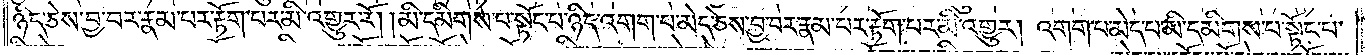ཉིད་ཅེས་བྱ་བར་རྣམ་པར་རྟོག་པར་མི་འགྱུར་རོ། །མི་དམིགས་པ་སྟོང་པ་ཉིད་འགག་པ་མེད་ཅེས་བྱ་བར་རྣམ་པར་རྟོག་པར་མི་འགྱུར། འགག་པ་མེད་པ་མི་དམིགས་པ་སྟོང་པ་
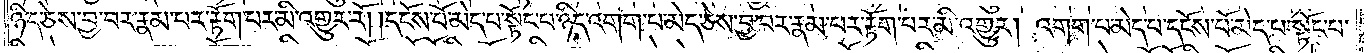ཉིད་ཅེས་བྱ་བར་རྣམ་པར་རྟོག་པར་མི་འགྱུར་རོ། །དངོས་པོ་མེད་པ་སྟོང་པ་ཉིད་འགག་པ་མེད་ཅེས་བྱ་བར་རྣམ་པར་རྟོག་པར་མི་འགྱུར། འགག་པ་མེད་པ་དངོས་པོ་མེད་པ་སྟོང་པ་
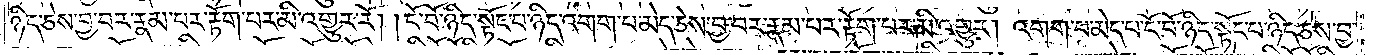ཉིད་ཅེས་བྱ་བར་རྣམ་པར་རྟོག་པར་མི་འགྱུར་རོ། །ངོ་བོ་ཉིད་སྟོང་པ་ཉིད་འགག་པ་མེད་ཅེས་བྱ་བར་རྣམ་པར་རྟོག་པར་མི་འགྱུར། འགག་པ་མེད་པ་ངོ་བོ་ཉིད་སྟོང་པ་ཉིད་ཅེས་བྱ་
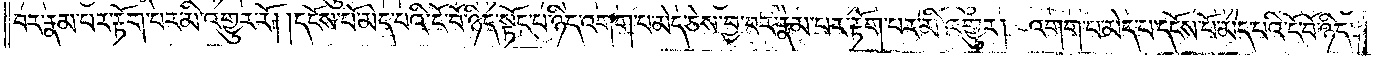བར་རྣམ་པར་རྟོག་པར་མི་འགྱུར་རོ། །དངོས་པོ་མེད་པའི་ངོ་བོ་ཉིད་སྟོང་པ་ཉིད་འགག་པ་མེད་ཅེས་བྱ་བར་རྣམ་པར་རྟོག་པར་མི་འགྱུར། འགག་པ་མེད་པ་དངོས་པོ་མེད་པའི་ངོ་བོ་ཉིད་
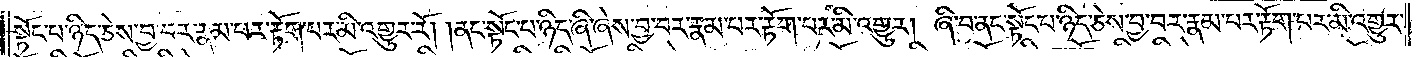སྟོང་པ་ཉིད་ཅེས་བྱ་བར་རྣམ་པར་རྟོག་པར་མི་འགྱུར་རོ། །ནང་སྟོང་པ་ཉིད་ཞི་ཞེས་བྱ་བར་རྣམ་པར་རྟོག་པར་མི་འགྱུར། ཞི་བ་ནང་སྟོང་པ་ཉིད་ཅེས་བྱ་བར་རྣམ་པར་རྟོག་པར་མི་འགྱུར་
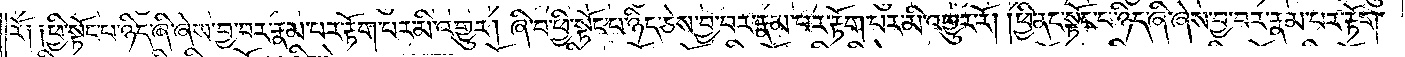རོ༏ ༏ཕྱི་སྟོང་པ་ཉིད་ཞི་ཞེས་བྱ་བར་རྣམ་པར་རྟོག་པར་མི་འགྱུར། ཞི་བ་ཕྱི་སྟོང་པ་ཉིད་ཅེས་བྱ་བར་རྣམ་པར་རྟོག་པར་མི་འགྱུར་རོ། །ཕྱི་ནང་སྟོང་པ་ཉིད་ཞི་ཞེས་བྱ་བར་རྣམ་པར་རྟོག་
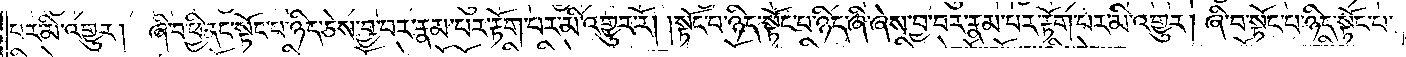པར་མི་འགྱུར། ཞི་བ་ཕྱི་ནང་སྟོང་པ་ཉིད་ཅེས་བྱ་བར་རྣམ་པར་རྟོག་པར་མི་འགྱུར་རོ། །སྟོང་པ་ཉིད་སྟོང་པ་ཉིད་ཞི་ཞེས་བྱ་བར་རྣམ་པར་རྟོག་པར་མི་འགྱུར། ཞི་བ་སྟོང་པ་ཉིད་སྟོང་པ་
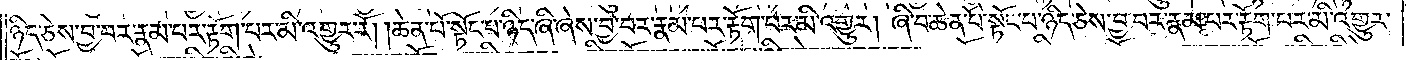ཉིད་ཅེས་བྱ་བར་རྣམ་པར་རྟོག་པར་མི་འགྱུར་རོ། །ཆེན་པོ་སྟོང་པ་ཉིད་ཞི་ཞེས་བྱ་བར་རྣམ་པར་རྟོག་པར་མི་འགྱུར། ཞི་བ་ཆེན་པོ་སྟོང་པ་ཉིད་ཅེས་བྱ་བར་རྣམ་པར་རྟོག་པར་མི་འགྱུར་
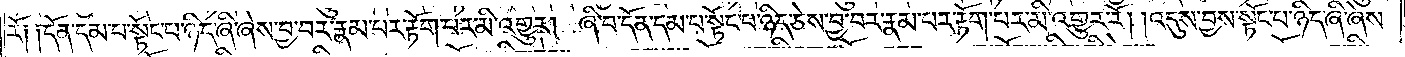རོ༏ ༏དོན་དམ་པ་སྟོང་པ་ཉིད་ཞི་ཞེས་བྱ་བར་རྣམ་པར་རྟོག་པར་མི་འགྱུར། ཞི་བ་དོན་དམ་པ་སྟོང་པ་ཉིད་ཅེས་བྱ་བར་རྣམ་པར་རྟོག་པར་མི་འགྱུར་རོ། །འདུས་བྱས་སྟོང་པ་ཉིད་ཞི་ཞེས་
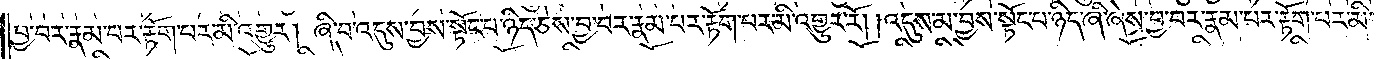བྱ་བར་རྣམ་པར་རྟོག་པར་མི་འགྱུར། ཞི་བ་འདུས་བྱས་སྟོང་པ་ཉིད་ཅེས་བྱ་བར་རྣམ་པར་རྟོག་པར་མི་འགྱུར་རོ། །འདུས་མ་བྱས་སྟོང་པ་ཉིད་ཞི་ཞེས་བྱ་བར་རྣམ་པར་རྟོག་པར་མི་
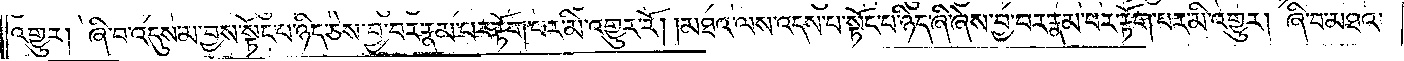འགྱུར། ཞི་བ་འདུས་མ་བྱས་སྟོང་པ་ཉིད་ཅེས་བྱ་བར་རྣམ་པར་རྟོག་པར་མི་འགྱུར་རོ། །མཐའ་ལས་འདས་པ་སྟོང་པ་ཉིད་ཞི་ཞེས་བྱ་བར་རྣམ་པར་རྟོག་པར་མི་འགྱུར། ཞི་བ་མཐའ་
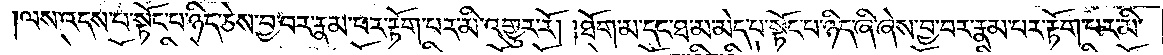ལས་འདས་པ་སྟོང་པ་ཉིད་ཅེས་བྱ་བར་རྣམ་པར་རྟོག་པར་མི་འགྱུར་རོ། །ཐོག་མ་དང་ཐ་མ་མེད་པ་སྟོང་པ་ཉིད་ཞི་ཞེས་བྱ་བར་རྣམ་པར་རྟོག་པར་མི་
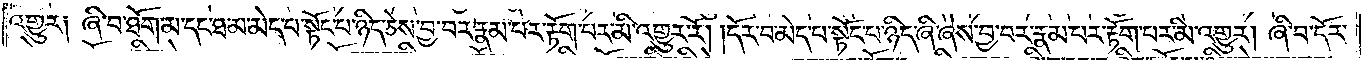འགྱུར༏ ཞི་བ་ཐོག་མ་དང་ཐ་མ་མེད་པ་སྟོང་པ་ཉིད་ཅེས་བྱ་བར་རྣམ་པར་རྟོག་པར་མི་འགྱུར་རོ། །དོར་བ་མེད་པ་སྟོང་པ་ཉིད་ཞི་ཞེས་བྱ་བར་རྣམ་པར་རྟོག་པར་མི་འགྱུར། ཞི་བ་དོར་
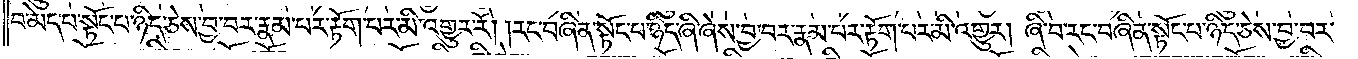བ་མེད་པ་སྟོང་པ་ཉིད་ཅེས་བྱ་བར་རྣམ་པར་རྟོག་པར་མི་འགྱུར་རོ། །རང་བཞིན་སྟོང་པ་ཉིད་ཞི་ཞེས་བྱ་བར་རྣམ་པར་རྟོག་པར་མི་འགྱུར། ཞི་བ་རང་བཞིན་སྟོང་པ་ཉིད་ཅེས་བྱ་བར་
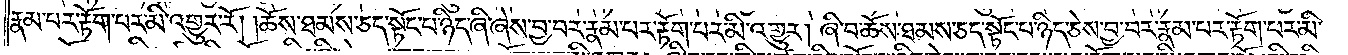རྣམ་པར་རྟོག་པར་མི་འགྱུར་རོ། །ཆོས་ཐམས་ཅད་སྟོང་པ་ཉིད་ཞི་ཞེས་བྱ་བར་རྣམ་པར་རྟོག་པར་མི་འགྱུར། ཞི་བ་ཆོས་ཐམས་ཅད་སྟོང་པ་ཉིད་ཅེས་བྱ་བར་རྣམ་པར་རྟོག་པར་མི་
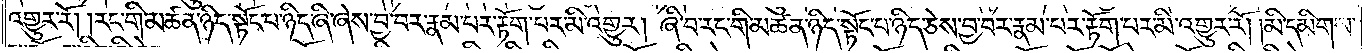འགྱུར་རོ། །རང་གི་མཚན་ཉིད་སྟོང་པ་ཉིད་ཞི་ཞེས་བྱ་བར་རྣམ་པར་རྟོག་པར་མི་འགྱུར། ཞི་བ་རང་གི་མཚན་ཉིད་སྟོང་པ་ཉིད་ཅེས་བྱ་བར་རྣམ་པར་རྟོག་པར་མི་འགྱུར་རོ། །མི་དམིགས་
